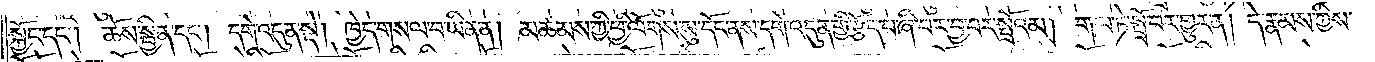སྐྱོང་དང༌། ཆོས་སྦྱིན་དང༌། དགེ་འདུན་སྡེ། ཁྱེད་གསལ་བ་ཡིན་ན། མཚམས་ཀྱི་ཕྱི་ལོགས་སུ་དོང་ནས་དགེ་འདུན་གྱི་རྩོད་པ་ཞི་བར་བྱ་བར་སྤྲོའམ། གལ་ཏེ་སྤྲོ་བར་གྱུར་ན། དེ་རྣམས་ཀྱིས་
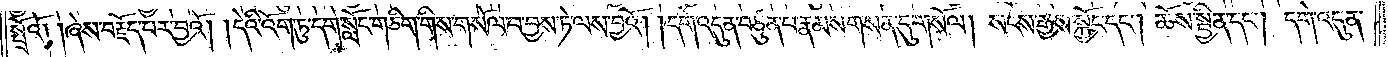སྤྲོའོ། །ཞེས་བརྗོད་པར་བྱའོ། །དེའི་འོག་ཏུ་དགེ་སློང་གཅིག་གིས་གསོལ་བ་བྱས་ཏེ་ལས་བྱའོ། །དགེ་འདུན་བཙུན་པ་རྣམས་གསན་དུ་གསོལ། སངས་རྒྱས་སྐྱོང་དང༌། ཆོས་སྦྱིན་དང༌། དགེ་འདུན་
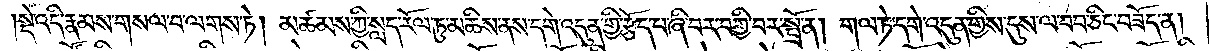སྡེ་འདི་རྣམས་གསལ་བ་ལགས་ཏེ། མཚམས་ཀྱི་སླད་རོལ་ཏུ་མཆིས་ནས་དགེ་འདུན་གྱི་རྩོད་པ་ཞི་བར་བགྱི་བར་སྤྲོ་ན། གལ་ཏེ་དགེ་འདུན་གྱིས་དུས་ལ་བབ་ཅིང་བཟོད་ན།
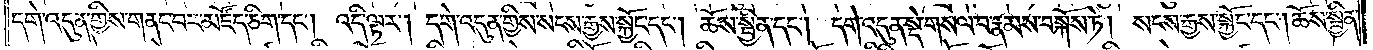དགེ་འདུན་གྱིས་གནང་བར་མཛོད་ཅིག་དང༌། འདི་ལྟར། དགེ་འདུན་གྱིས་སངས་རྒྱས་སྐྱོང་དང༌། ཆོས་སྦྱིན་དང༌། དགེ་འདུན་སྡེ་གསལ་བ་རྣམས་བསྐོས་ཏེ། སངས་རྒྱས་སྐྱོང་དང༌། ཆོས་སྦྱིན་
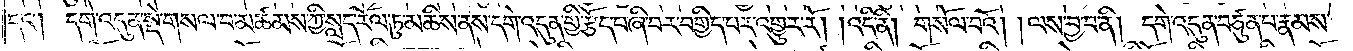དང༌། དགེ་འདུན་སྡེ་གསལ་བ་མཚམས་ཀྱི་སླད་རོལ་ཏུ་མཆིས་ནས་དགེ་འདུན་གྱི་རྩོད་པ་ཞི་བར་བགྱིད་པར་འགྱུར་རོ། །འདི་ནི། གསོལ་བའོ། །ལས་བྱ་བ་ནི། དགེ་འདུན་བཙུན་པ་རྣམས་
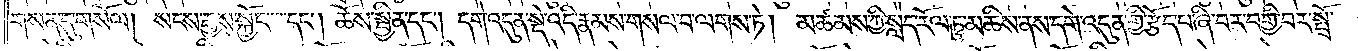གསན་དུ་གསོལ། སངས་རྒྱས་སྐྱོང་དང༌། ཆོས་སྦྱིན་དང༌། དགེ་འདུན་སྡེ་འདི་རྣམས་གསལ་བ་ལགས་ཏེ། མཚམས་ཀྱི་སླད་རོལ་ཏུ་མཆིས་ནས་དགེ་འདུན་གྱི་རྩོད་པ་ཞི་བར་བགྱི་བར་སྤྲོ་
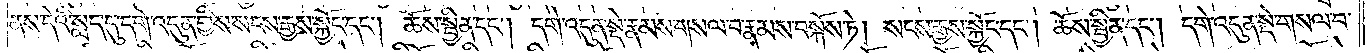ནས་དེའི་སླད་དུ་དགེ་འདུན་གྱིས་སངས་རྒྱས་སྐྱོང་དང༌། ཆོས་སྦྱིན་དང༌། དགེ་འདུན་སྡེ་རྣམས་གསལ་བ་རྣམས་བསྐོས་ཏེ། སངས་རྒྱས་སྐྱོང་དང༌། ཆོས་སྦྱིན་དང༌། དགེ་འདུན་སྡེ་གསལ་བ་
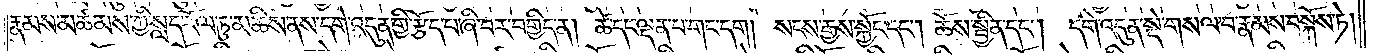རྣམས་མཚམས་ཀྱི་སླད་རོལ་ཏུ་མཆིས་ནས་དགེ་འདུན་གྱི་རྩོད་པ་ཞི་བར་བགྱིད་ན། ཚེ་དང་ལྡན་པ་གང་དག །སངས་རྒྱས་སྐྱོང་དང༌། ཆོས་སྦྱིན་དང༌། དགེ་འདུན་སྡེ་གསལ་བ་རྣམས་བསྐོས་ཏེ།
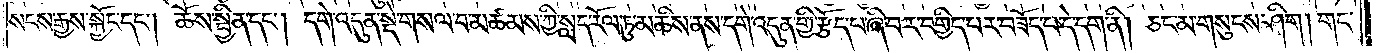སངས་རྒྱས་སྐྱོང་དང༌། ཆོས་སྦྱིན་དང༌། དགེ་འདུན་སྡེ་གསལ་བ་མཚམས་ཀྱི་སླད་རོལ་ཏུ་མཆིས་ནས་དགེ་འདུན་གྱི་རྩོད་པ་ཞི་བར་བགྱིད་པར་བཟོད་པ་དེ་དག་ནི། ཅང་མ་གསུངས་ཤིག །གང་
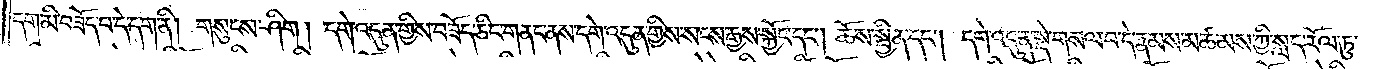དག་མི་བཟོད་པ་དེ་དག་ནི། གསུངས་ཤིག །དགེ་འདུན་གྱིས་བཟོད་ཅིང་གནང་ནས་དགེ་འདུན་གྱིས་སངས་རྒྱས་སྐྱོང་དང༌། ཆོས་སྦྱིན་དང༌། དགེ་འདུན་སྡེ་གསལ་བ་དེ་རྣམས་མཚམས་ཀྱི་སླད་རོལ་ཏུ་
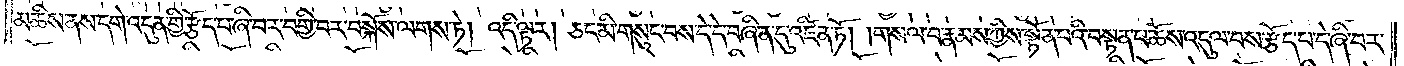མཆིས་ནས་དགེ་འདུན་གྱི་རྩོད་པ་ཞི་བར་བགྱི་བར་བསྐོས་ལགས་ཏེ། འདི་ལྟར། ཅང་མི་གསུང་བས་དེ་དེ་བཞིན་དུ་འཛིན་ཏོ། །གསལ་བ་རྣམས་ཀྱིས་སྟོན་པའི་བསྟན་པ་ཆོས་འདུལ་བས་རྩོད་པ་དེ་ཞི་བར་
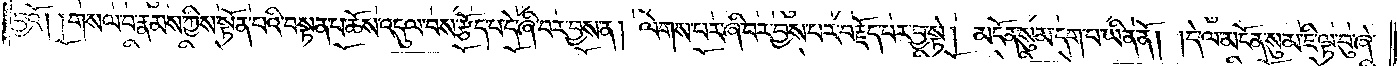བྱའོ། །གསལ་བ་རྣམས་ཀྱིས་སྟོན་པའི་བསྟན་པ་ཆོས་འདུལ་བས་རྩོད་པ་དེ་ཞི་བར་བྱས་ན། ལེགས་པར་ཞི་བར་བྱས་པར་བརྗོད་པར་བྱ་སྟེ། མངོན་སུམ་དག་པ་ཡིན་ནོ། །དེ་ལ་མངོན་སུམ་ཇི་ལྟ་བུ་ཞེ་
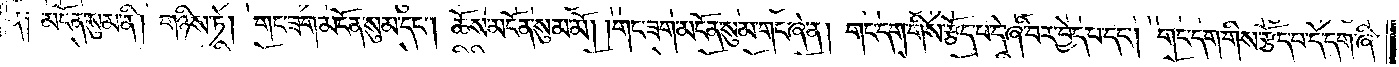ན༑ མངོན་སུམ་ནི། གཉིས་ཏེ། གང་ཟག་མངོན་སུམ་དང༌། ཆོས་མངོན་སུམ་མོ། །གང་ཟག་མངོན་སུམ་གང་ཞེ་ན། གང་དག་གིས་རྩོད་པ་དེ་ཞི་བར་བྱེད་པ་དང༌། གང་དག་གིས་རྩོད་པ་དེ་དག་ཞི་
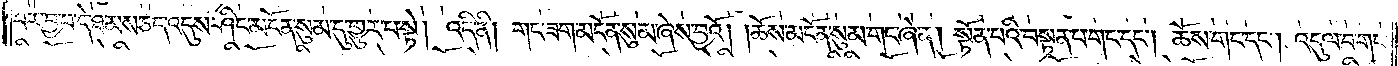བར་བྱ་བ་དེ་ཐམས་ཅད་འདུས་ཤིང་མངོན་སུམ་དུ་གྱུར་པ་སྟེ། འདི་ནི། གང་ཟག་མངོན་སུམ་ཞེས་བྱའོ། །ཆོས་མངོན་སུམ་གང་ཞེ་ན། སྟོན་པའི་བསྟན་པ་གང་དང༌། ཆོས་གང་དང༌། འདུལ་བ་གང་
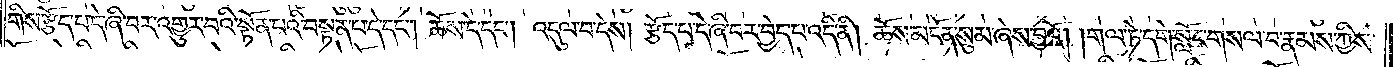གིས་རྩོད་པ་དེ་ཞི་བར་འགྱུར་བའི་སྟོན་པའི་བསྟན་པ་དེ་དང༌། ཆོས་དེ་དང༌། འདུལ་བ་དེས། རྩོད་པ་དེ་ཞི་བར་བྱེད་པ་འདི་ནི། ཆོས་མངོན་སུམ་ཞེས་བྱའོ། །གལ་ཏེ་དགེ་སློང་གསལ་བ་རྣམས་ཀྱིས་
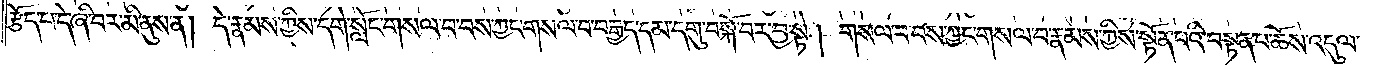རྩོད་པ་དེ་ཞི་བར་མི་ནུས་ན། དེ་རྣམས་ཀྱིས་དགེ་སློང་གསལ་བ་བས་ཀྱང་གསལ་བ་བརྒྱད་དམ་དགུ་བསྐོ་བར་བྱ་སྟེ། གསལ་བ་བས་ཀྱང་གསལ་བ་རྣམས་ཀྱིས་སྟོན་པའི་བསྟན་པ་ཆོས་འདུལ་
